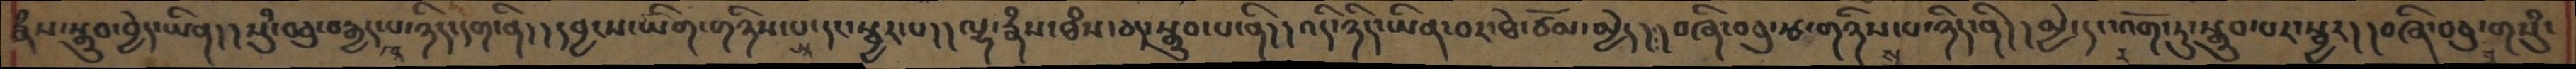རྣཾས་སྒྲུབ་བྱེད་ཡིན།།སུཾ་བཅུ་བརྒྱད་པ་ཉིད་དག་ནི།།དབྱངས་ཡིག་གཉིས་པ་དང་སྦྱར་པ།།ལྷ་རྣཾས་ཐཾས་ཅད་སྒྲུབ་པ་ནི།།འདི་ཉིད་ཡིན་བར་ཐེ་ཙོམ་མྱེད།།བཞི་བཅུ་རྩ་གཉིས་པ་ཉིད་ནི།།མྱེ་དང་འོག་ཏུ་སྒྲུབ་པར་སྦྱར།།བཞི་བཅུ་གསུཾ་
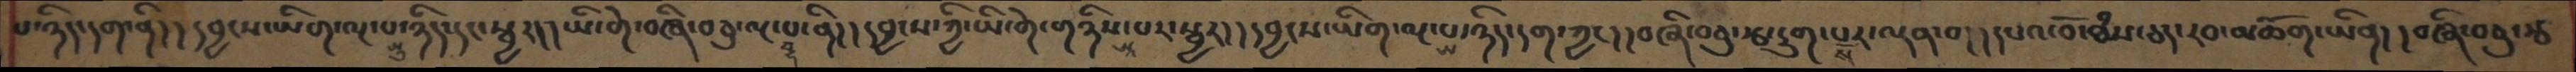པ་ཉིད་དག་ནི།།དབྱངས་ཡིག་ལྔ་པ་ཉིད་དང་སྦྱར།། ཡི་གེ་བཞི་བཅུ་ལྔ་པ་ནི།།དབྱངས་ཀྱི་ཡི་གེ་གཉིས་པར་སྦྱར།།དབྱངས་ཡིག་ལྔ་པ་ཉིད་དག་ཀྱང།།བཞི་བཅུ་རྩ་དྲུག་སར་ལྡན་བ།།དཔའ་བོ་ཐཾས་ཅད་རབ་མཆོག་ཡིན།།བཞི་བཅུ་རྩ
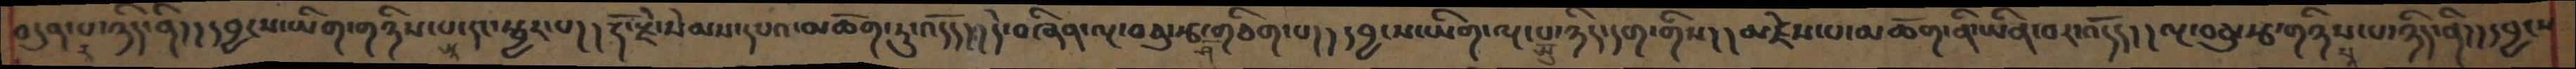བདུན་པ་ཉིད་ནི།།དབྱངས་ཡིག་གཉིས་པ་དང་སྦྱར་པ།། རྡོ་རྗེ་སེམས་དཔའ་མཆོག་ཏུ་འདོད།།དེ་བཞིན་ལྔ་བཅུ་རྩ་གཅིག་པ།།དབྱངས་ཡིག་ལྔ་པ་ཉིད་དག་གིས།།མཛེས་པ་མཆོག་ནི་ཡིན་བར་འདོད།།ལྔ་བཅུ་རྩ་གཉིས་པ་ཉིད་ནི།།དབྱངས
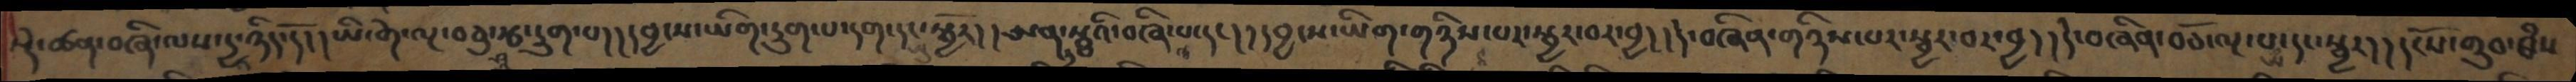སྡེ་ཚན་བཞི་ལས་དྱ་ཉིད་དོ། །ཡི་གེ་ལྔ་བཅུ་རྩ་དྲུག་པ། །དབྱངས་ཡིག་དྲུག་པ་དག་དང་སྦྱོར། །ཨན་ཏ་སྠའི་བཞི་པ་དང། །དབྱངས་ཡིག་གཉིས་པར་སྦྱར་བར་བྱ། །དེ་བཞིན་གཉིས་པར་སྦྱར་བར་བྱ། །དེ་བཞིན་བཅོ་ལྔ་པ་དང་སྦྱར། །དངོས་གྲུབ་ཐཾས་
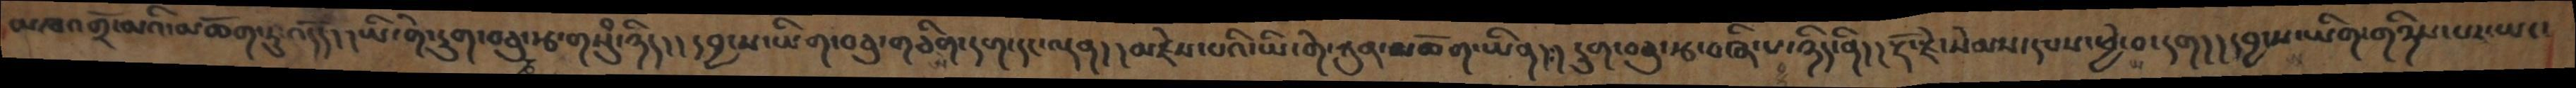མཁའགྲོ་མའི་མཆོག་ཏུ་འདོད། །ཡི་གེ་དྲུག་བཅུ་རྩ་གསུཾ་ཉིད། །དབྱངས་ཡིག་བཅུ་གཅིག་དག་དང་ལྡན། །མཛེས་པའི་ཡི་གེ་ཀུན་མཆོག་ཡིན། །དྲུག་བཅུ་རྩ་བཞི་པ་ཉིད་ནི། །རྡོ་རྗེ་སེམས་དཔས་ཕྱེ་བ་དག། །དབྱངས་ཡིག་གཉིས་པར་ཡང་
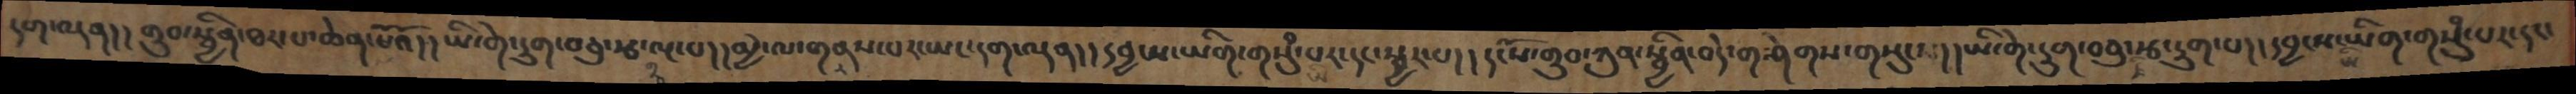དག་ལྡན། །གྲུབ་སྦྱིན་ཐར་པ་ཆེན་པོའོ། །ཡི་གེ་དྲུག་བཅུ་རྩ་ལྔ་པ། །མྱེ་ལ་གནས་པར་ཡང་དག་ལྡན། །དབྱངས་ཡིག་གསུཾ་པར་དང་སྦྱར་པ། །དངོས་གྲུབ་ཀུན་སྦྱིན་བདེ་གཤེགས་གསུངས། །ཡི་གེ་དྲུག་བཅུ་རྩ་དྲུག་པ། །དབྱངས་ཡིག་གསུཾ་པར་དང་
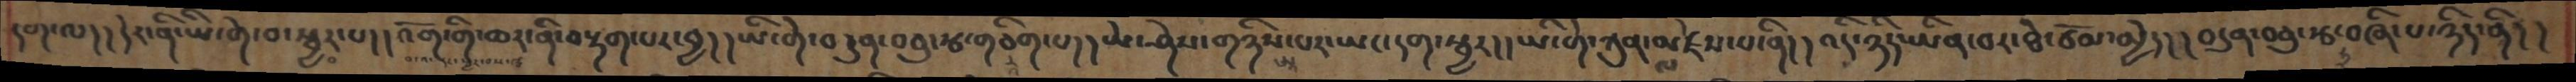དག་ལ།།དེར་ནི་ཡི་གེ་བ་སྦྱར་པ།།འོག་གི་ཆར་ནི་བརྟག་པར་བྱ།།ཡི་གེ་བདུན་བཅུ་རྩ་གཅིག་པ།།ཡེ་ཤེས་གཉིས་པར་ཡང་དག་སྦྱར།།ཡི་གེ་ཀུན་ལ་མཛེས་པ་ནི།།འདི་ཉིད་ཡིན་བར་ཐེ་ཙོམ་མྱེད།།བདུན་བཅུ་རྩ་བཞི་པ་ཉིད་ནི།།
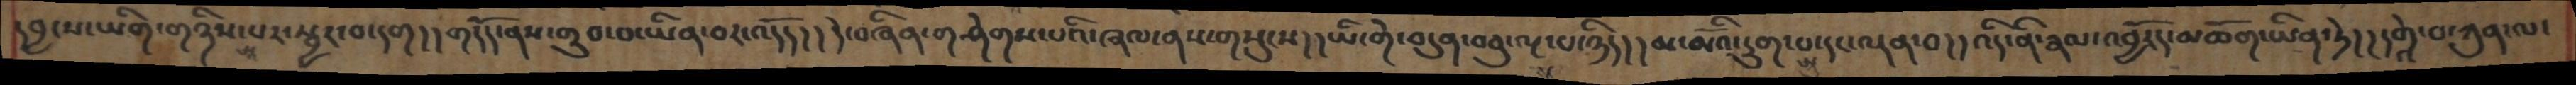དབྱངས་ཡིག་གཉིས་པར་སྦྱར་བ་དག།།གདོད་ནས་གྲུབ་པ་ཡིན་བར་འདོད།།དེ་བཞིན་གཤེགས་པའི་ཞལ་ནས་གསུངས།།ཡི་གེ་བདུན་བཅུ་ལྔ་པ་ཉིད།།མ་མོའི་དྲུག་པ་དང་ལྡན་བ།།འདི་ནི་རྣལ་འབྱོརད་མཆོག་ཡིན་ཏེ།།དགེའ་བ་ཀུན་ལ་
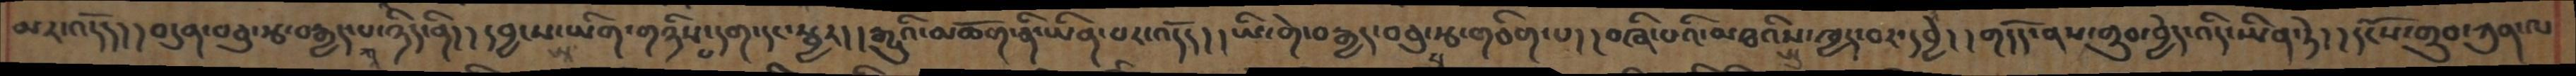མར་འདོད།།བདུན་བཅུ་རྩ་བརྒྱད་པ་ཉིད་ནི།།དབྱངས་ཡིག་གཉིས་པ་དག་དང་སྦྱར།།རྒྱུའི་མཆོག་ནི་ཡིན་པར་འདོད།།ཡི་གེ་བརྒྱད་བཅུ་རྩ་གཅིག་པ།།བཞི་པའི་མཐའིས་ཁྱད་བར་དབྱེ།།གདོད་ནས་གྲུབ་བྱེད་འདི་ཡིན་ཏེ།།དངོས་གྲུབ་ཀུན་ལ
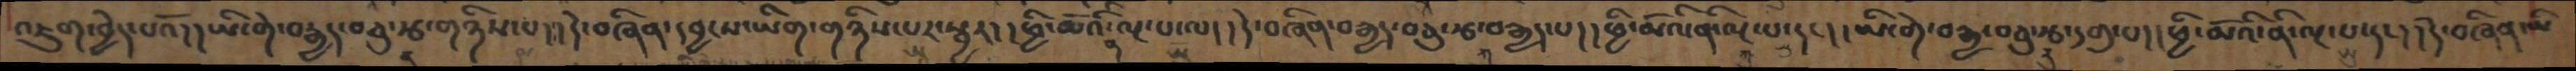འཇུག་བྱེད་པའོ།།ཡི་གེ་བརྒྱད་བཅུ་རྩ་གཉིས་པ།།དེ་བཞིན་དབྱངས་ཡིག་གཉིས་པར་སྦྱར།།ཕྱི་མོའི་ནི་ལྔ་པ་ལ།།དེ་བཞིན་བརྒྱད་བཅུ་རྩ་བརྒྱད་པ།།ཕྱི་མོའི་ནི་ལྔ་པ་དང།།ཡི་གེ་བརྒྱ་བཅུ་རྩ་དགུ་པ།།ཕྱི་མོའི་ནི་ལྔ་པ་དང།།དེ་བཞིན་མི
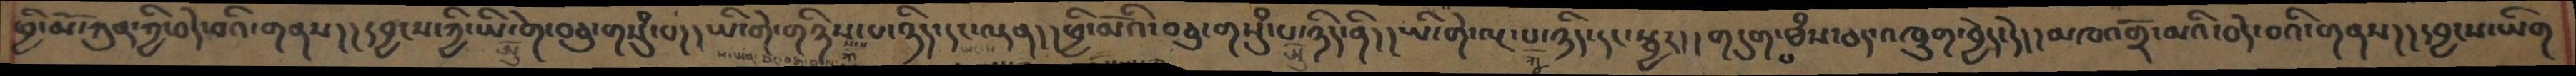ཕྱི་མོ་ཀུན་ཀྱི་བདེ་བའི་གནས། །དབྱངས་ཀྱི་ཡི་གེ་བཅུ་གསུཾ་པ། །ཡི་གེ་གཉིས་པ་ཉིད་དང་ལྡན། །ཕྱི་མོའི་བཅུ་གསུཾ་པ་ཉིད་ནི། །ཡི་གེ་ལྔ་པ་ཉིད་དང་སྦྱར། །གདུག་པ་ཐཾས་ཅད་འཁྲུག་བྱེད་དེ། །མཁའགྲོ་མའི་བདེ་བའི་གནས། །དབྱངས་ཡིག
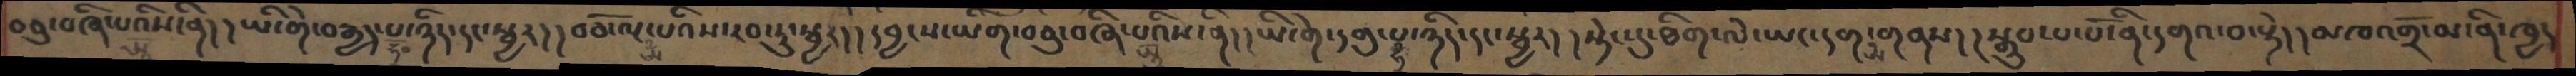བཅུ་བཞི་པའིས་ནི། །ཡི་གེ་བརྒྱད་པ་ཉིད་དང་སྦྱར། །བཅོ་ལྔ་པའིས་རབ་ཏུ་སྦྱར། །དབྱངས་ཡིག་བཅུ་བཞི་པའིས་ནི། །ཡི་གེ་དགུ་པ་ཉིད་དང་སྦྱར། །སྟེང་དུ་ཐིག་ལེ་ཡང་དག་གནས། །སྒྲུབ་པ་པོ་ནི་དགའ་བ་སྟེ། །མཁའགྲོ་མ་ནི་ཁྱད
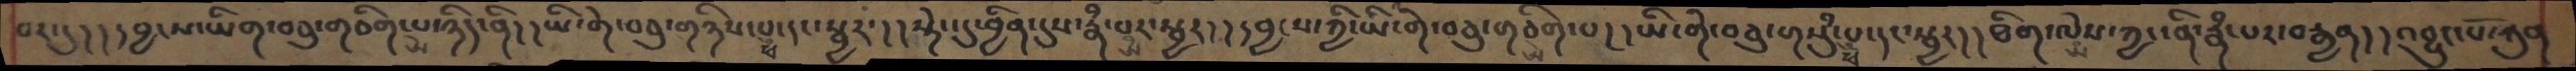པར་དུ། །དབྱངས་ཡིག་བཅུ་གཅིག་པ་ཉིད་ནི། །ཡི་གེ་བཅུ་གཉིས་པ་དང་སྦྱར། །སྟེང་དུ་བྱིན་དུས་རྣཾ་པར་སྦྱར། །དབྱངས་ཀྱི་ཡི་གེ་བཅུ་གཅིག་པ། །ཡི་གེ་བཅུ་གསུཾ་པ་དང་སྦྱར། །ཐིག་ལེས་ཀྱང་ནི་རྣཾ་པར་བརྒྱན། །འབྱུང་པོ་ཀུན
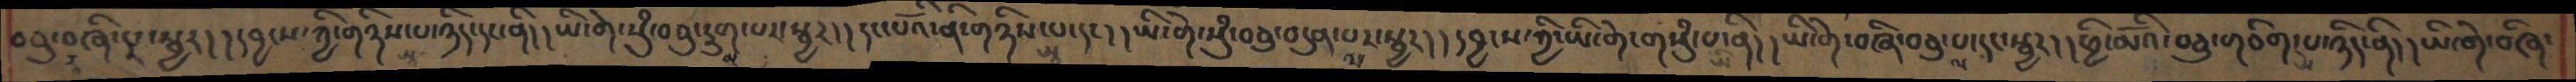བཅུ་བཞི་པར་སྦྱར།།དབྱངས་ཀྱི་གཉིས་པ་ཉིད་དང་ནི།།ཡི་གེ་སུཾ་བཅུ་དྲུག་པར་སྦྱར།།དང་པོའི་ནི་གཉིས་པ་དང།།ཡི་གེ་སུཾ་བཅུ་བདུན་པར་སྦྱར།།དབྱངས་ཀྱི་ཡི་གེ་གསུཾ་པ་ནི།།ཡི་གེ་བཞི་བཅུ་པ་དང་སྦྱར།།ཕྱི་མོའི་བཅུ་གཅིག་པ་ཉིད་ནི།།ཡི་གེ་བཞི་
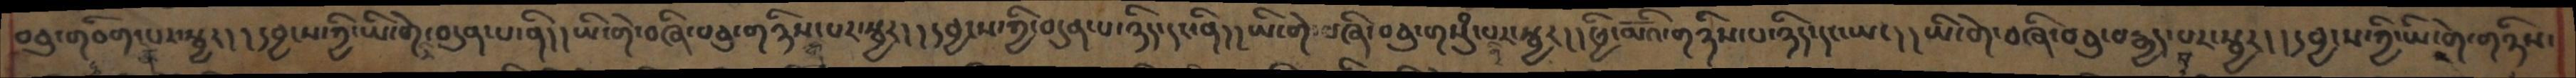བཅུ་གཅིག་པར་སྦྱར།།དབྱངས་ཀྱི་ཡི་གེ་བདུན་པ་ནི།།ཡི་གེ་བཞི་བཅུ་གཉིས་པར་སྦྱར།།དབྱངས་ཀྱི་བདུན་པ་ཉིད་དང་ནི།།ཡི་གེ་བཞི་བཅུ་གསུཾ་པར་སྦྱར།།ཕྱི་མོའི་གཉིས་པ་ཉིད་དང་ཡང།།ཡི་གེ་བཞི་བཅུ་བརྒྱད་པར་སྦྱར།།དབྱངས་ཀྱི་ཡི་གེ་གཉིས་
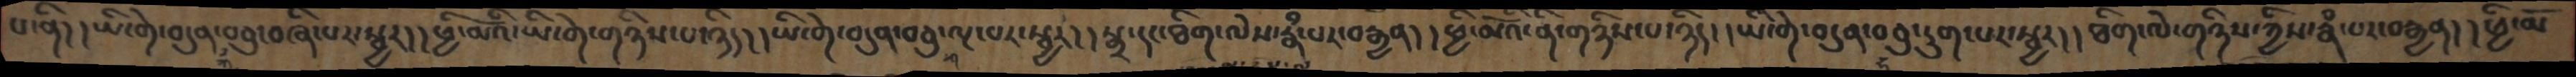པ་ནི། །ཡི་གེ་བདུན་བཅུ་བཞི་པར་སྦྱར། །ཕྱི་མོའི་ཡི་གེ་གཉིས་པ་ཉིད། །ཡི་གེ་བདུན་བཅུ་ལྔ་པར་སྦྱར། །སྒྲ་དང་ཐིག་ལེས་རྣཾ་པར་བརྒྱན། །ཕྱི་མོའི་ནི་གཉིས་པ་ཉིད། །ཡི་གེ་བདུན་བཅུ་དྲུག་པར་སྦྱར། །ཐིག་ལེ་གཉིས་ཀྱིས་རྣཾ་པར་བརྒྱན། །ཕྱི་མོ
